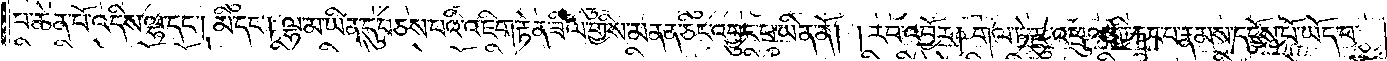པ་ཆེན་པོ་འདིས་ལྷ་དང༌། མི་དང༌། ལྷ་མ་ཡིན་དུ་བཅས་པའི་འཇིག་རྟེན་ཟིལ་གྱིས་མནན་ཅིང་འབྱུང་བ་ཡིན་ནོ། །རབ་འབྱོར། གལ་ཏེ་རྫུ་འཕྲུལ་གྱི་རྐང་པ་རྣམས་དངོས་པོ་ཡོད་པ་
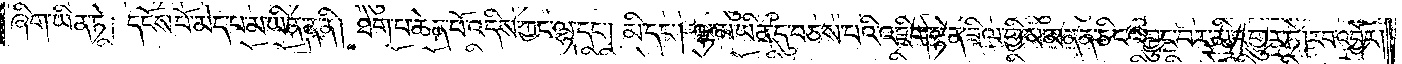ཞིག་ཡིན་ཏེ། དངོས་པོ་མེད་པ་མ་ཡིན་ན་ནི། ཐེག་པ་ཆེན་པོ་འདིས་ཀྱང་ལྷ་དང༌། མི་དང༌། ལྷ་མ་ཡིན་དུ་བཅས་པའི་འཇིག་རྟེན་ཟིལ་གྱིས་མནན་ཅིང་འབྱུང་བར་མི་འགྱུར་ཏེ། རབ་འབྱོར།
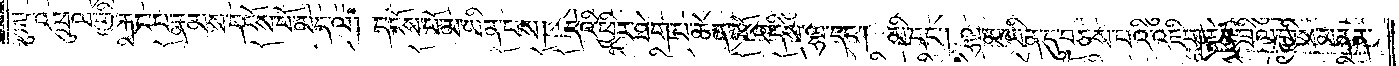རྫུ་འཕྲུལ་གྱི་རྐང་པ་རྣམས་དངོས་པོ་མེད་ལ། དངོས་པོ་མ་ཡིན་པས། དེའི་ཕྱིར་ཐེག་པ་ཆེན་པོ་འདིས་ལྷ་དང༌། མི་དང༌། ལྷ་མ་ཡིན་དུ་བཅས་པའི་འཇིག་རྟེན་ཟིལ་གྱིས་མནན་
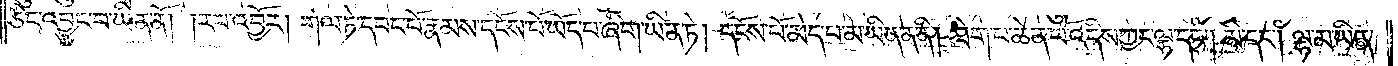ཅིང་འབྱུང་བ་ཡིན་ནོ། །རབ་འབྱོར། གལ་ཏེ་དབང་པོ་རྣམས་དངོས་པོ་ཡོད་པ་ཞིག་ཡིན་ཏེ། དངོས་པོ་མེད་པ་མ་ཡིན་ན་ནི། ཐེག་པ་ཆེན་པོ་འདིས་ཀྱང་ལྷ་དང༌། མི་དང༌། ལྷ་མ་ཡིན་
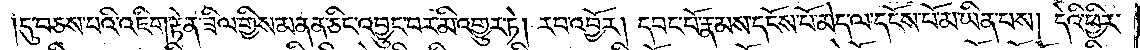དུ་བཅས་པའི་འཇིག་རྟེན་ཟིལ་གྱིས་མནན་ཅིང་འབྱུང་བར་མི་འགྱུར་ཏེ། རབ་འབྱོར། དབང་པོ་རྣམས་དངོས་པོ་མེད་ལ་དངོས་པོ་མ་ཡིན་པས། དེའི་ཕྱིར་
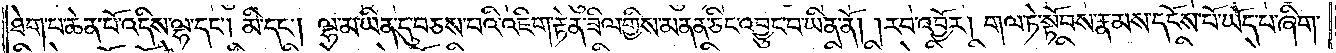ཐེག་པ་ཆེན་པོ་འདིས་ལྷ་དང༌། མི་དང༌། ལྷ་མ་ཡིན་དུ་བཅས་པའི་འཇིག་རྟེན་ཟིལ་གྱིས་མནན་ཅིང་འབྱུང་བ་ཡིན་ནོ། །རབ་འབྱོར། གལ་ཏེ་སྟོབས་རྣམས་དངོས་པོ་ཡོད་པ་ཞིག་
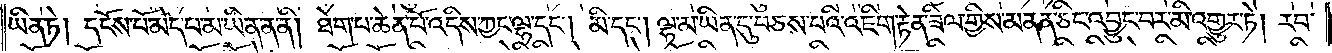ཡིན་ཏེ། དངོས་པོ་མེད་པ་མ་ཡིན་ན་ནི། ཐེག་པ་ཆེན་པོ་འདིས་ཀྱང་ལྷ་དང༌། མི་དང༌། ལྷ་མ་ཡིན་དུ་བཅས་པའི་འཇིག་རྟེན་ཟིལ་གྱིས་མནན་ཅིང་འབྱུང་བར་མི་འགྱུར་ཏེ། རབ་
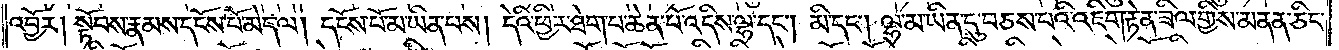འབྱོར། སྟོབས་རྣམས་དངོས་པོ་མེད་ལ། དངོས་པོ་མ་ཡིན་པས། དེའི་ཕྱིར་ཐེག་པ་ཆེན་པོ་འདིས་ལྷ་དང༌། མི་དང༌། ལྷ་མ་ཡིན་དུ་བཅས་པའི་འཇིག་རྟེན་ཟིལ་གྱིས་མནན་ཅིང་
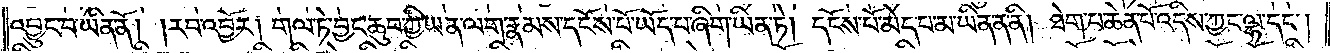འབྱུང་བ་ཡིན་ནོ། །རབ་འབྱོར། གལ་ཏེ་བྱང་ཆུབ་ཀྱི་ཡན་ལག་རྣམས་དངོས་པོ་ཡོད་པ་ཞིག་ཡིན་ཏེ། དངོས་པོ་མེད་པ་མ་ཡིན་ན་ནི། ཐེག་པ་ཆེན་པོ་འདིས་ཀྱང་ལྷ་དང༌།
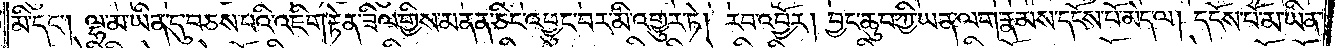མི་དང༌། ལྷ་མ་ཡིན་དུ་བཅས་པའི་འཇིག་རྟེན་ཟིལ་གྱིས་མནན་ཅིང་འབྱུང་བར་མི་འགྱུར་ཏེ། རབ་འབྱོར། བྱང་ཆུབ་ཀྱི་ཡན་ལག་རྣམས་དངོས་པོ་མེད་ལ། དངོས་པོ་མ་ཡིན་
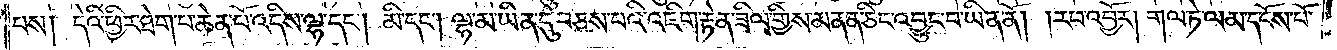པས། དེའི་ཕྱིར་ཐེག་པ་ཆེན་པོ་འདིས་ལྷ་དང༌། མི་དང༌། ལྷ་མ་ཡིན་དུ་བཅས་པའི་འཇིག་རྟེན་ཟིལ་གྱིས་མནན་ཅིང་འབྱུང་བ་ཡིན་ནོ། །རབ་འབྱོར། གལ་ཏེ་ལམ་དངོས་པོ་
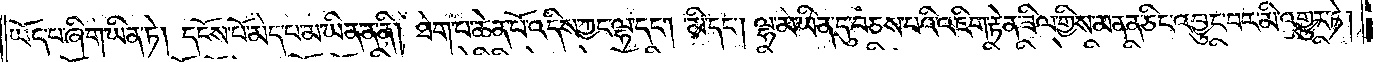ཡོད་པ་ཞིག་ཡིན་ཏེ། དངོས་པོ་མེད་པ་མ་ཡིན་ན་ནི། ཐེག་པ་ཆེན་པོ་འདིས་ཀྱང་ལྷ་དང༌། མི་དང༌། ལྷ་མ་ཡིན་དུ་བཅས་པའི་འཇིག་རྟེན་ཟིལ་གྱིས་མནན་ཅིང་འབྱུང་བར་མི་འགྱུར་ཏེ།
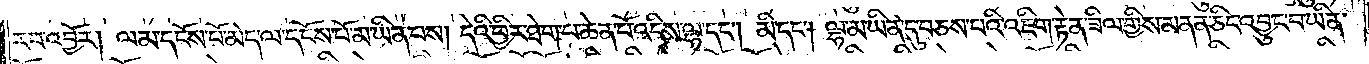རབ་འབྱོར། ལམ་དངོས་པོ་མེད་ལ་དངོས་པོ་མ་ཡིན་པས། དེའི་ཕྱིར་ཐེག་པ་ཆེན་པོ་འདིས་ལྷ་དང༌། མི་དང༌། ལྷ་མ་ཡིན་དུ་བཅས་པའི་འཇིག་རྟེན་ཟིལ་གྱིས་མནན་ཅིང་འབྱུང་བ་ཡིན་
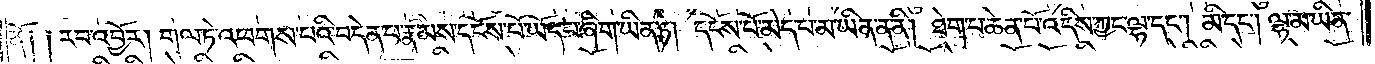ནོ། །རབ་འབྱོར། གལ་ཏེ་འཕགས་པའི་བདེན་པ་རྣམས་དངོས་པོ་ཡོད་པ་ཞིག་ཡིན་ཏེ། དངོས་པོ་མེད་པ་མ་ཡིན་ན་ནི། ཐེག་པ་ཆེན་པོ་འདིས་ཀྱང་ལྷ་དང༌། མི་དང༌། ལྷ་མ་ཡིན་
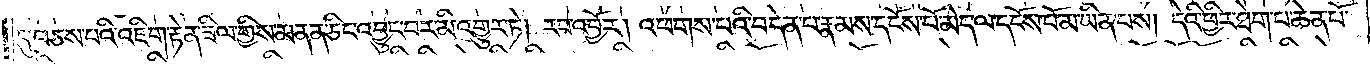དུ་བཅས་པའི་འཇིག་རྟེན་ཟིལ་གྱིས་མནན་ཅིང་འབྱུང་བར་མི་འགྱུར་ཏེ། རབ་འབྱོར། འཕགས་པའི་བདེན་པ་རྣམས་དངོས་པོ་མེད་ལ་དངོས་པོ་མ་ཡིན་པས། དེའི་ཕྱིར་ཐེག་པ་ཆེན་པོ་
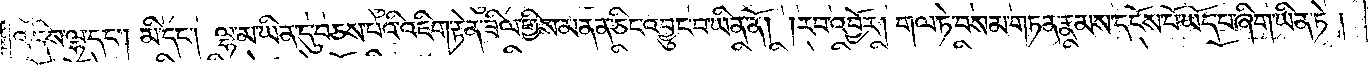འདིས་ལྷ་དང༌། མི་དང༌། ལྷ་མ་ཡིན་དུ་བཅས་པའི་འཇིག་རྟེན་ཟིལ་གྱིས་མནན་ཅིང་འབྱུང་བ་ཡིན་ནོ། །རབ་འབྱོར། གལ་ཏེ་བསམ་གཏན་རྣམས་དངོས་པོ་ཡོད་པ་ཞིག་ཡིན་ཏེ།
